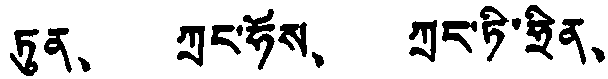ཏུན、 ཀྲུང་ཧོས、 ཀྲང་ཏི་ཧྲིན、
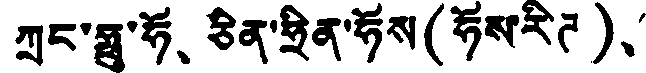ཀྲུང་ཧྥུ་ཧོ、 ཅིན་ཧྲིན་ཧོས (ཧོས་རིཊ་)、
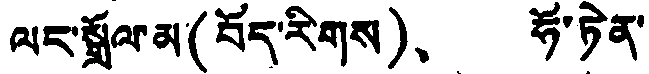ལང་སྒྲོལ་མ་(བོད་རིགས)、 ཧོ་ཏེན་
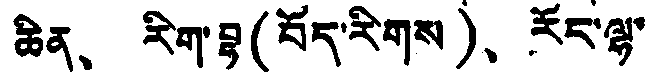ཆིན、 རིག་བྷ (བོད་རིགས)、 རོང་ལྷ་
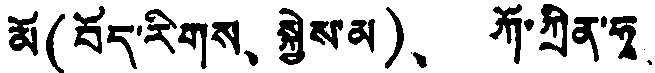མོ (བོད་རིགས、 སྐྱེས་མ)、 ཀོ་ཀྲིན་ཧྭ་
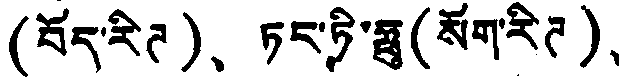(བོད་རིཊ )、 ཏང་ཏི་ཧྥུ (སོག་རིཊ)、
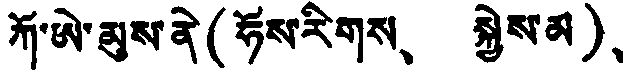ཀོ་ཨེ་མུས་ནེ(ཧོས་རིགས、 སྐྱེས་མ)、
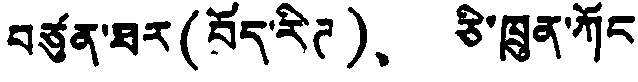བཙུན་ཐར (བོད་རིཊ)、 ཅི་ཁྲུན་ཀོང
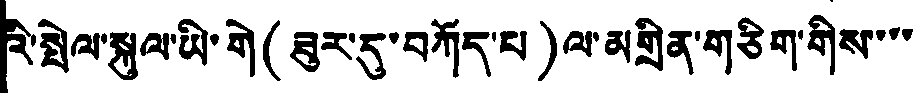འི་སྤེལ་སྐུལ་ཡི་གེ (ཟུར་དུ་བཀོད་པ) ལ་མགྲིན་གཅིག་གིས་་་
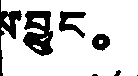ས་བྱུང。
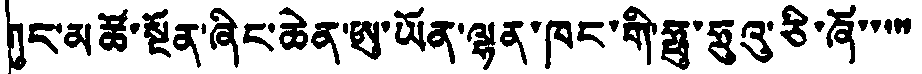ཀུང་མཚོ་སྔོན་ཞིང་ཆེན་ཨུ་ཡོན་ལྷན་ཁང་གི་ཧྥུ་ཧྲུའུ་ཅི་ཞོ་་་་་
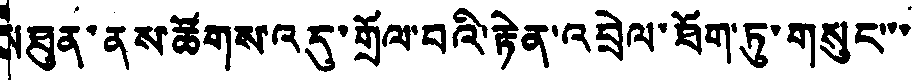མཐུན་ནས་ཚོགས་འདུ་གྲོལ་བའི་རྟེན་འབྲེལ་ཐོག་ཏུ་གསུང་་་
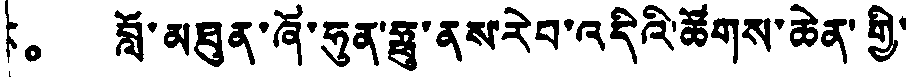。 བློ་མཐུན་ཞོ་ཧུན་ཧྥུ་ནས་རེབ་འདིའི་ཚོགས་ཆེན་གྱི་
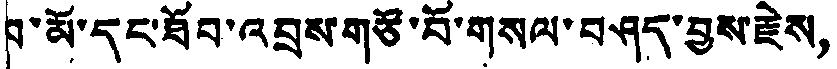བ་མོ་དང་ཐོབ་འབྲས་གཙོ་བོ་གསལ་བཤད་བྱས་རྗེས，
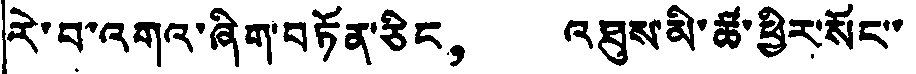རེ་བ་འགའ་ཞིག་བཏོན་ཅིང， འཐུས་མི་ཚ་ཕྱིར་སོང་་
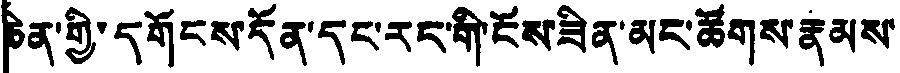ཅེན་གྱི་དགོངས་དོན་དང་རང་གི་ངོས་ཟིན་མང་ཚོགས་རྣམས་
